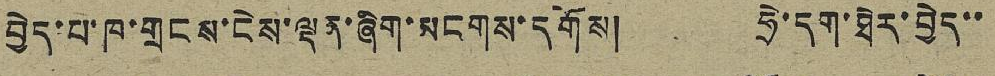བྱེད་པ་ཁ་གྲངས་ངེས་ལྡན་ཞིག་མངགས་དགོས། ཧྲེ་དག་ཐེར་བྱེད་་
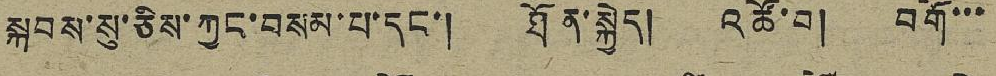སྐབས་སུ་ཅིས་ཀྱང་བསམ་པ་དང་། ཐོན་སྐྱེད། འཚོ་བ། བགོ་་་
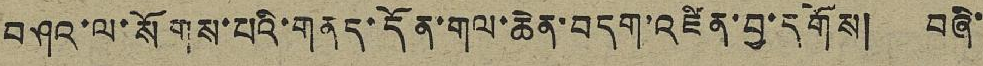བཤའ་ལ་སོགས་པའི་གནད་དོན་གལ་ཆེན་བདག་འཛིན་བྱ་དགོས། བཞི་
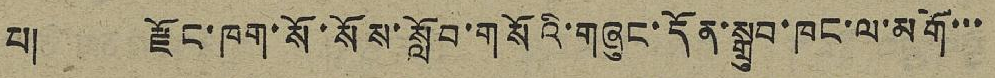པ། རྫོང་ཁག་སོ་སོས་སློབ་གསོའི་གཞུང་དོན་སྒྲུབ་ཁང་ལ་མགོ་་་
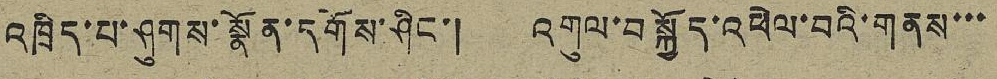འཁྲིད་པ་ཤུགས་སྣོན་དགོས་ཤིང་། འགུལ་བསྐྱོད་འཕེལ་བའི་གནས་་་
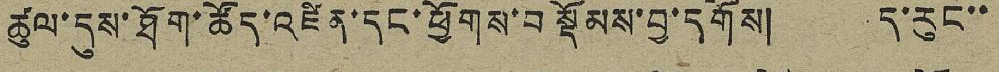ཚུལ་དུས་ཐོག་ཚོད་འཛིན་དང་ཕྱོགས་བསྡོམས་བྱ་དགོས། ད་རུང་་
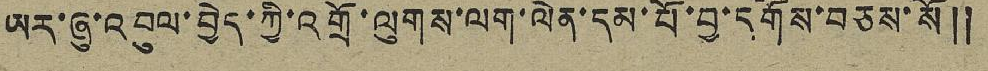ཡར་ཞུ་འབུལ་བྱེད་ཀྱི་འགྲོ་ལུགས་ལག་ལེན་དམ་པོ་བྱ་དགོས་བཅས་སོ༎
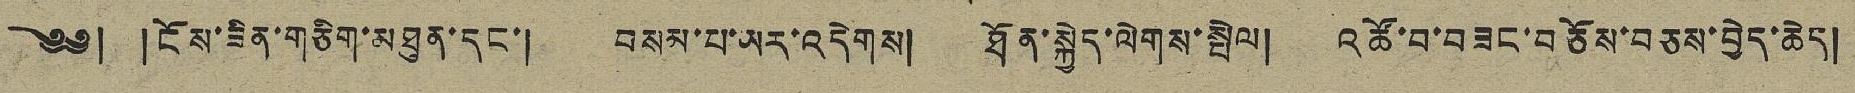༄༅། །ངོས་ཟིན་གཅིག་མཐུན་དང་། བསམ་པ་ཡར་འདེགས། ཐོན་སྐྱེད་ལེགས་སྤེལ། འཚོ་བ་བཟང་བཅོས་བཅས་བྱེད་ཆེད།
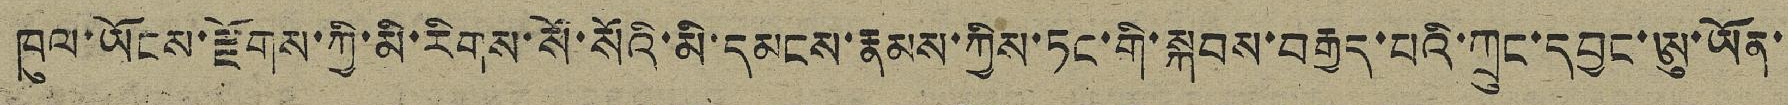ཁུལ་ཡོངས་རྫོགས་ཀྱི་མི་རིགས་སོ་སོའི་མི་དམངས་རྣམས་ཀྱིས་ཏང་གི་སྐབས་བརྒྱད་པའི་ཀྲུང་དབྱང་ཨུ་ཡོན་
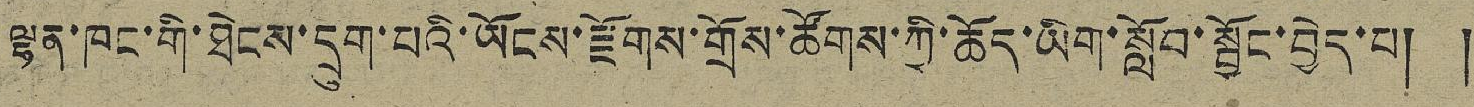ལྷན་ཁང་གི་ཐེངས་དྲུག་པའི་ཡོངས་རྫོགས་གྲོས་ཚོགས་ཀྱི་ཆོད་ཡིག་སློབ་སྦྱོང་བྱེད་པ། །
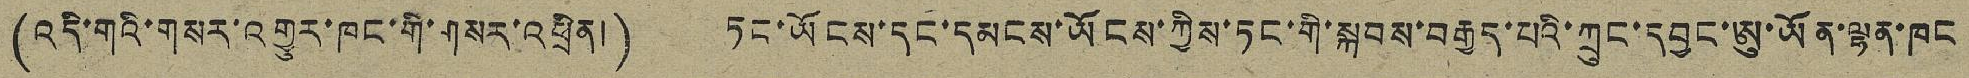(འདི་གའི་གསར་འགྱུར་ཁང་གི་གསར་འཕྲིན།) ཏང་ཡོངས་དང་དམངས་ཡོངས་ཀྱིས་ཏང་གི་སྐབས་བརྒྱད་པའི་ཀྲུང་དབྱང་ཨུ་ཡོན་ལྷན་ཁང
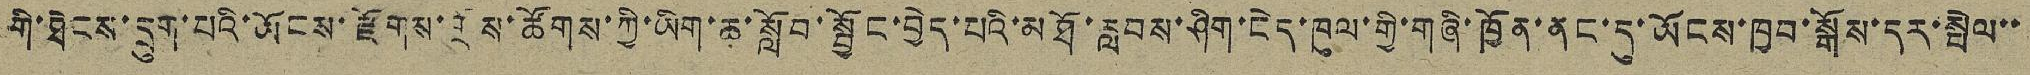གི་ཐེངས་དྲུག་པའི་ཡོངས་རྫོགས་གྲོས་ཚོགས་ཀྱི་ཡིག་ཆ་སློབ་སྦྱོང་བྱེད་པའི་མཐོ་རླབས་ཤིག་ངེད་ཁུལ་གྱི་གཞི་ཁྱོན་ནང་དུ་ཡོངས་ཁྱབ་སྒོས་དར་སྤེལ་་
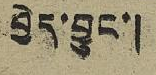བྱེད་བྱུང་།
